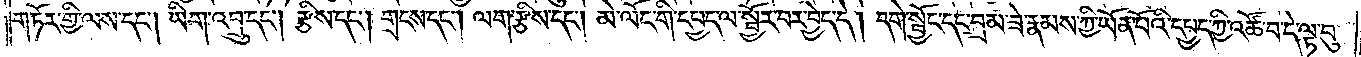གཏོར་གྱི་ལས་དང༌། ཡིག་འབྲུ་དང༌། རྩིས་དང༌། གྲངས་དང༌། ལག་རྩིས་དང༌། མེ་ལོང་གི་དཔྱད་ལ་སྦྱོར་བར་བྱེད་དེ། དགེ་སྦྱོང་དང་བྲམ་ཟེ་རྣམས་ཀྱི་ཡོན་པོའི་དཔྱད་ཀྱི་འཚོ་བ་དེ་ལྟ་བུ་
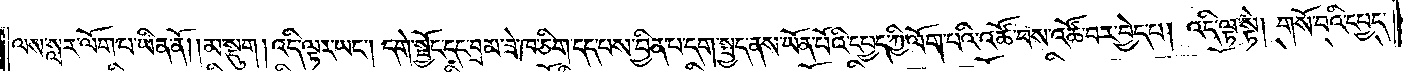ལས་སླར་ལོག་པ་ཡིན་ནོ། མ་སྡུག །འདི་ལྟར་ཡང༌། དགེ་སྦྱོང་དང་བྲམ་ཟེ་ཁ་ཅིག་དད་པས་བྱིན་པ་དག་སྤྱད་ནས་ཡོན་པོའི་དཔྱད་ཀྱི་ལོག་པའི་འཚོ་བས་འཚོ་བར་བྱེད་པ། འདི་ལྟ་སྟེ། གསོ་བའི་དཔྱད་
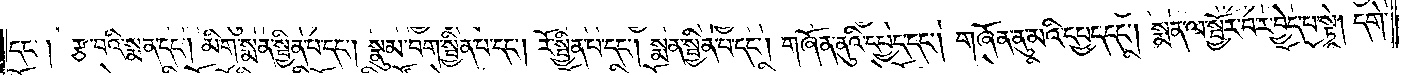དང༌། རྩ་བའི་སྨན་དང༌། མིག་སྨན་སྦྱིན་པ་དང༌། སྣུམ་བག་སྦྱིན་པ་དང༌། རོ་སྦྱིན་པ་དང༌། སྨན་སྦྱིན་པ་དང༌། གཞོན་ནུའི་དཔྱད་དང༌། གཞོན་ནུ་མའི་དཔྱད་དང༌། སྨན་ལ་སྦྱོར་བར་བྱེད་པ་སྟེ། དགེ་
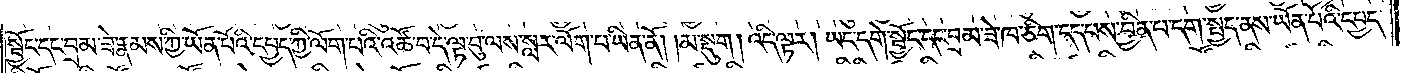སྦྱོང་དང་བྲམ་ཟེ་རྣམས་ཀྱི་ཡོན་པོའི་དཔྱད་ཀྱི་ལོག་པའི་འཚོ་བ་དེ་ལྟ་བུ་ལས་སླར་ལོག་པ་ཡིན་ནོ། །མ་སྡུག། འདི་ལྟར། ཡང་དགེ་སྦྱོང་དང་བྲམ་ཟེ་ཁ་ཅིག་དད་པས་བྱིན་པ་དག་སྤྱད་ནས་ཡོན་པོའི་དཔྱད་
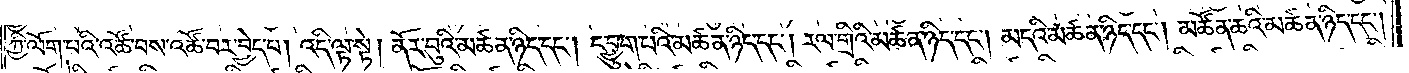ཀྱི་ལོག་པའི་འཚོ་བས་འཚོ་བར་བྱེད་པ། འདི་ལྟ་སྟེ། ནོར་བུའི་མཚན་ཉིད་དང༌། དབྱུག་པའི་མཚན་ཉིད་དང༌། རལ་གྲིའི་མཚན་ཉིད་དང༌། མདའི་མཚན་ཉིད་དང༌། མཚོན་ཆའི་མཚན་ཉིད་དང༌།
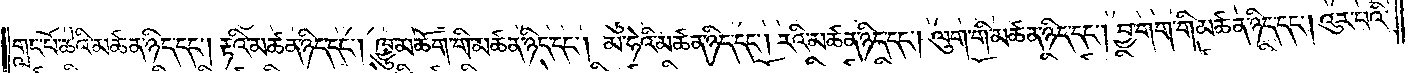གླང་པོ་ཆེའི་མཚན་ཉིད་དང༌། རྟའི་མཚན་ཉིད་དང༌། ཁྱུ་མཆོག་གི་མཚན་ཉིད་དང༌། མ་ཧེའི་མཚན་ཉིད་དང༌། རའི་མཚན་ཉིད་དང༌། ལུག་གི་མཚན་ཉིད་དང༌། བྱ་གག་གི་མཚན་ཉིད་དང༌། འུར་བའི་
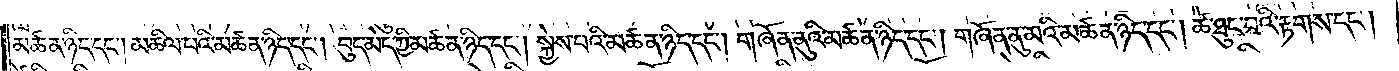མཚན་ཉིད་དང༌། མཆིལ་པའི་མཚན་ཉིད་དང༌། བུད་མེད་ཀྱི་མཚན་ཉིད་དང༌། སྐྱེས་པའི་མཚན་ཉིད་དང༌། གཞོན་ནུའི་མཚན་ཉིད་དང༌། གཞོན་ནུ་མའི་མཚན་ཉིད་དང༌། ཚེ་ཐུང་བའི་རྟགས་དང༌།
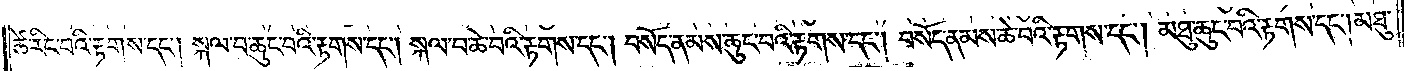ཚེ་རིང་བའི་རྟགས་དང༌། སྐལ་བ་ཆུང་བའི་རྟགས་དང༌། སྐལ་བ་ཆེ་བའི་རྟགས་དང༌། བསོད་ནམས་ཆུང་བའི་རྟགས་དང༌། བསོད་ནམས་ཆེ་བའི་རྟགས་དང༌། མཐུ་ཆུང་བའི་རྟགས་དང༌། མཐུ་
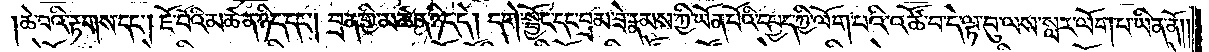ཆེ་བའི་རྟགས་དང༌། ཇོ་བོའི་མཚན་ཉིད་དང༌། བྲན་གྱི་མཚན་ཉིད་དེ། དགེ་སྦྱོང་དང་བྲམ་ཟེ་རྣམས་ཀྱི་ཡོན་པོའི་དཔྱད་ཀྱི་ལོག་པའི་འཚོ་བ་དེ་ལྟ་བུ་ལས་སླར་ལོག་པ་ཡིན་ནོ། །
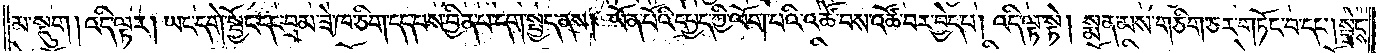མ་སྡུག །འདི་ལྟར། ཡང་དགེ་སྦྱོང་དང་བྲམ་ཟེ་ཁ་ཅིག་དད་པས་བྱིན་པ་དག་སྤྱད་ནས། ཡོན་པོའི་དཔྱད་ཀྱི་ལོག་པའི་འཚོ་བས་འཚོ་བར་བྱེད་པ། འདི་ལྟ་སྟེ། སྨན་མས་གཅིག་ཅར་གཏོང་བ་དང༌། སྦྲེངས་
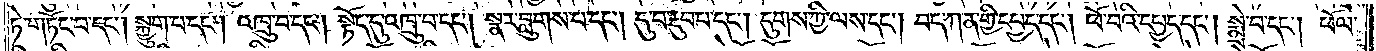ཏེ་གཏོང་བ་དང༌། སྐྱུག་པ་དང༌། འཁྲུ་བ་དང༌། སྟོད་དུ་འཁྲུ་བ་དང༌། སྣར་བླུགས་པ་དང༌། དུ་བ་རྔུབ་པ་དང༌། དུགས་ཀྱི་ལས་དང༌། བད་ཀན་གྱི་དཔྱད་དང༌། ཕོ་བའི་དཔྱད་དང༌། སྨྲེ་བ་དང༌། ཕོལ་
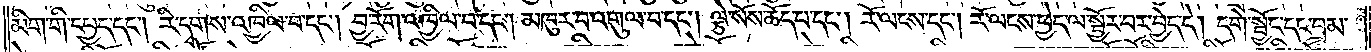མིག་གི་དཔྱད་དང༌། རི་དྭགས་འཁྱིལ་བ་དང༌། བྱ་རོག་འཁྱིལ་བ་དང༌། མཁུར་བ་འགུལ་བ་དང༌། ལྕེ་སོས་ཆོད་པ་དང༌། རོ་ལངས་དང༌། རོ་ལངས་ཕྱེད་ལ་སྦྱོར་བར་བྱེད་དེ། དགེ་སྦྱོང་དང་བྲམ་
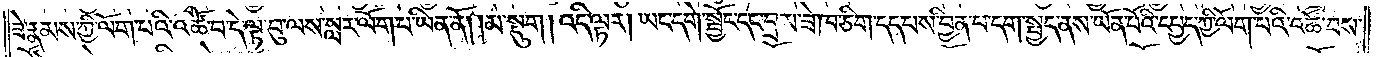ཟེ་རྣམས་ཀྱི་ལོག་པའི་འཚོ་བ་དེ་ལྟ་བུ་ལས་སླར་ལོག་པ་ཡིན་ནོ། །མ་སྡུག །འདི་ལྟར། ཡང་དགེ་སྦྱོང་དང་བྲམ་ཟེ་ཁ་ཅིག་དད་པས་བྱིན་པ་དག་སྤྱད་ནས་ཡོན་པོའི་དཔྱད་ཀྱི་ལོག་པའི་འཚོ་བས་
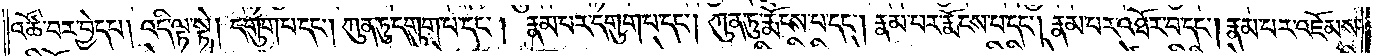འཚོ་བར་བྱེད་པ། འདི་ལྟ་སྟེ། དགུག་པ་དང༌། ཀུན་ཏུ་དགུག་པ་དང༌། རྣམ་པར་དགུག་པ་དང༌། ཀུན་ཏུ་རྨོངས་པ་དང༌། རྣམ་པར་རྨོངས་པ་དང༌། རྣམ་པར་འཐོར་བ་དང༌། རྣམ་པར་འཇོམས་
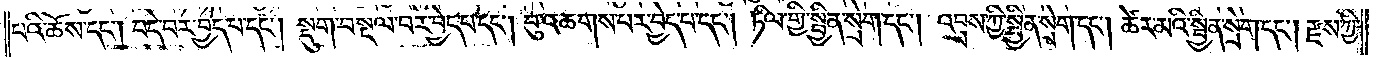པའི་ཆོས་དང༌། བདེ་བར་བྱེད་པ་དང༌། སྡུག་བསྔལ་བར་བྱེད་པ་དང༌། བུ་འཆགས་པར་བྱེད་པ་དང༌། ཏིལ་གྱི་སྦྱིན་སྲེག་དང༌། འབྲས་ཀྱི་སྦྱིན་སྲེག་དང༌། ཚེར་མའི་སྦྱིན་སྲེག་དང༌། རྫས་ཀྱི་
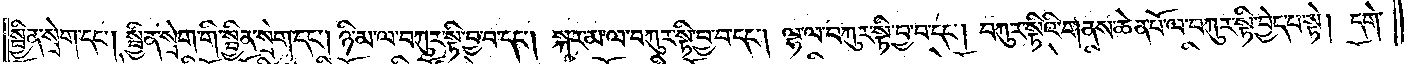སྦྱིན་སྲེག་དང༌། སྦྱིན་སྲེག་གི་སྦྱིན་སྲེག་དང༌། ཉི་མ་ལ་བཀུར་སྟི་བྱ་བ་དང༌། སྐར་མ་ལ་བཀུར་སྟི་བྱ་བ་དང༌། ལྷ་ལ་བཀུར་སྟི་བྱ་བ་དང༌། བཀུར་སྟིའི་གནས་ཆེན་པོ་ལ་བསྐུར་སྟི་བྱེད་པ་སྟེ། དགེ་
